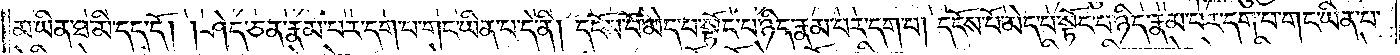མ་ཡིན་ཐ་མི་དད་དོ། །ཤེད་ཅན་རྣམ་པར་དག་པ་གང་ཡིན་པ་དེ་ནི། དངོས་པོ་མེད་པ་སྟོང་པ་ཉིད་རྣམ་པར་དག་པ། དངོས་པོ་མེད་པ་སྟོང་པ་ཉིད་རྣམ་པར་དག་པ་གང་ཡིན་པ་
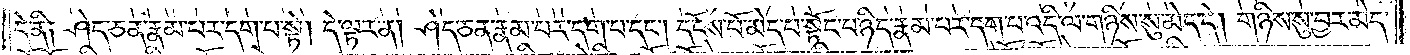དེ་ནི། ཤེད་ཅན་རྣམ་པར་དག་པ་སྟེ། དེ་ལྟར་ན། ཤེད་ཅན་རྣམ་པར་དག་པ་དང༌། དངོས་པོ་མེད་པ་སྟོང་པ་ཉིད་རྣམ་པར་དག་པ་འདི་ལ་གཉིས་སུ་མེད་དེ། གཉིས་སུ་བྱར་མེད་
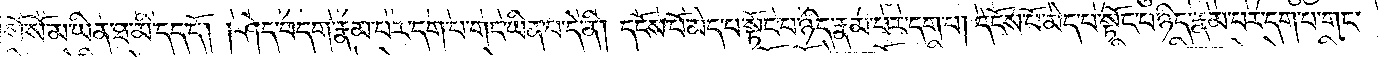སོ་སོ་མ་ཡིན་ཐ་མི་དད་དོ། །ཤེད་བདག་རྣམ་པར་དག་པ་གང་ཡིན་པ་དེ་ནི། དངོས་པོ་མེད་པ་སྟོང་པ་ཉིད་རྣམ་པར་དག་པ། དངོས་པོ་མེད་པ་སྟོང་པ་ཉིད་རྣམ་པར་དག་པ་གང་
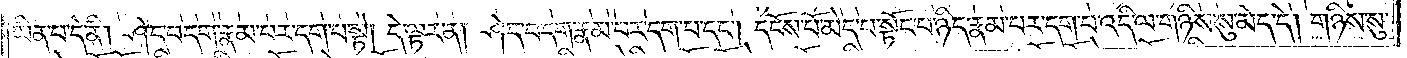ཡིན་པ་དེ་ནི། ཤེད་བདག་རྣམ་པར་དག་པ་སྟེ། དེ་ལྟར་ན། ཤེད་བདག་རྣམ་པར་དག་པ་དང༌། དངོས་པོ་མེད་པ་སྟོང་པ་ཉིད་རྣམ་པར་དག་པ་འདི་ལ་གཉིས་སུ་མེད་དེ། གཉིས་སུ་
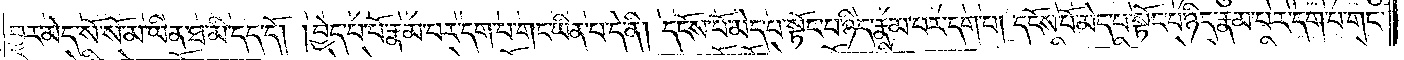བྱར་མེད་སོ་སོ་མ་ཡིན་ཐ་མི་དད་དོ། །བྱེད་པ་པོ་རྣམ་པར་དག་པ་གང་ཡིན་པ་དེ་ནི། དངོས་པོ་མེད་པ་སྟོང་པ་ཉིད་རྣམ་པར་དག་པ། དངོས་པོ་མེད་པ་སྟོང་པ་ཉིད་རྣམ་པར་དག་པ་གང་
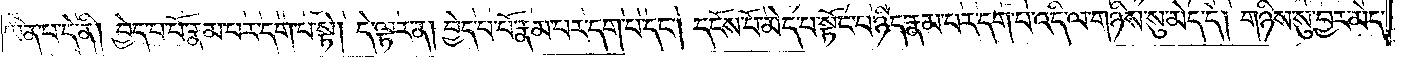ཡིན་པ་དེ་ནི། བྱེད་པ་པོ་རྣམ་པར་དག་པ་སྟེ། དེ་ལྟར་ན། བྱེད་པ་པོ་རྣམ་པར་དག་པ་དང༌། དངོས་པོ་མེད་པ་སྟོང་པ་ཉིད་རྣམ་པར་དག་པ་འདི་ལ་གཉིས་སུ་མེད་དེ། གཉིས་སུ་བྱར་མེད་
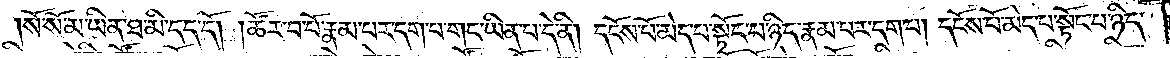སོ་སོ་མ་ཡིན་ཐ་མི་དད་དོ། །ཚོར་བ་པོ་རྣམ་པར་དག་པ་གང་ཡིན་པ་དེ་ནི། དངོས་པོ་མེད་པ་སྟོང་པ་ཉིད་རྣམ་པར་དག་པ། དངོས་པོ་མེད་པ་སྟོང་པ་ཉིད་
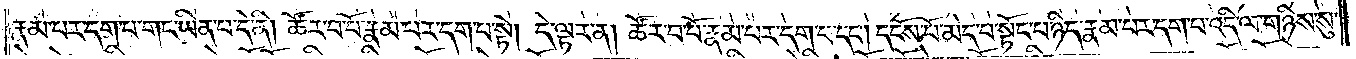རྣམ་པར་དག་པ་གང་ཡིན་པ་དེ་ནི། ཚོར་བ་པོ་རྣམ་པར་དག་པ་སྟེ། དེ་ལྟར་ན། ཚོར་བ་པོ་རྣམ་པར་དག་པ་དང༌། དངོས་པོ་མེད་པ་སྟོང་པ་ཉིད་རྣམ་པར་དག་པ་འདི་ལ་གཉིས་སུ་
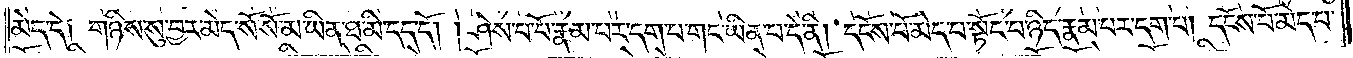མེད་དེ། གཉིས་སུ་བྱར་མེད་སོ་སོ་མ་ཡིན་ཐ་མི་དད་དོ། །ཤེས་པ་པོ་རྣམ་པར་དག་པ་གང་ཡིན་པ་དེ་ནི། དངོས་པོ་མེད་པ་སྟོང་པ་ཉིད་རྣམ་པར་དག་པ། དངོས་པོ་མེད་པ་
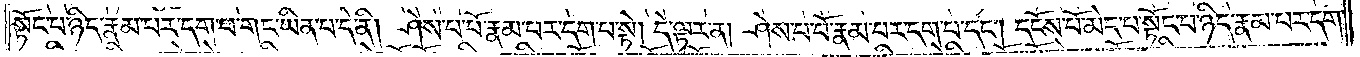སྟོང་པ་ཉིད་རྣམ་པར་དག་པ་གང་ཡིན་པ་དེ་ནི། ཤེས་པ་པོ་རྣམ་པར་དག་པ་སྟེ། དེ་ལྟར་ན། ཤེས་པ་པོ་རྣམ་པར་དག་པ་དང༌། དངོས་པོ་མེད་པ་སྟོང་པ་ཉིད་རྣམ་པར་དག་
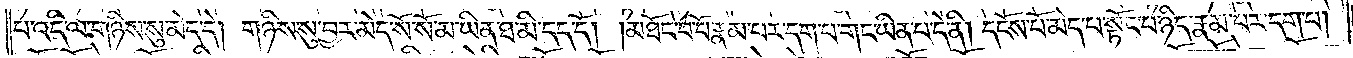པ་འདི་ལ་གཉིས་སུ་མེད་དེ། གཉིས་སུ་བྱར་མེད་སོ་སོ་མ་ཡིན་ཐ་མི་དད་དོ། །མཐོང་པ་པོ་རྣམ་པར་དག་པ་གང་ཡིན་པ་དེ་ནི། དངོས་པོ་མེད་པ་སྟོང་པ་ཉིད་རྣམ་པར་དག་པ།
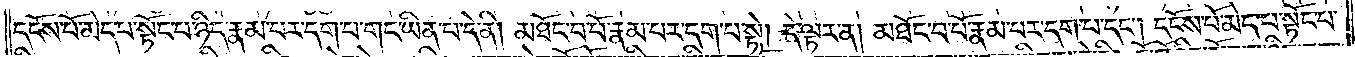དངོས་པོ་མེད་པ་སྟོང་པ་ཉིད་རྣམ་པར་དག་པ་གང་ཡིན་པ་དེ་ནི། མཐོང་བ་པོ་རྣམ་པར་དག་པ་སྟེ། དེ་ལྟར་ན། མཐོང་བ་པོ་རྣམ་པར་དག་པ་དང༌། དངོས་པོ་མེད་པ་སྟོང་པ་
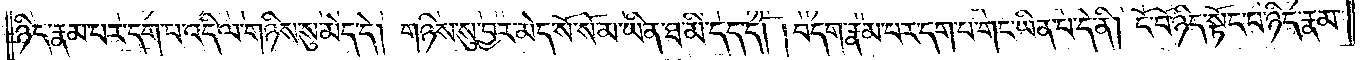ཉིད་རྣམ་བར་དག་པ་འདི་ལ་གཉིས་སུ་མེད་དེ། གཉིས་སུ་བྱར་མེད་སོ་སོ་མ་ཡིན་ཐ་མི་དད་དོ། །བདག་རྣམ་པར་དག་པ་གང་ཡིན་པ་དེ་ནི། ངོ་བོ་ཉིད་སྟོང་པ་ཉིད་རྣམ་
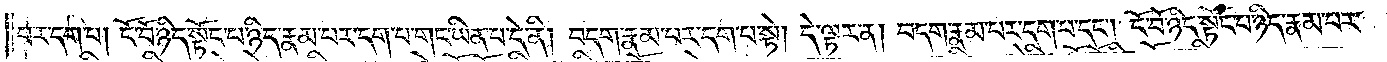པར་དག་པ། ངོ་བོ་ཉིད་སྟོང་པ་ཉིད་རྣམ་པར་དག་པ་གང་ཡིན་པ་དེ་ནི། བདག་རྣམ་པར་དག་པ་སྟེ། དེ་ལྟར་ན། བདག་རྣམ་པར་དག་པ་དང༌། ངོ་བོ་ཉིད་སྟོང་པ་ཉིད་རྣམ་པར་
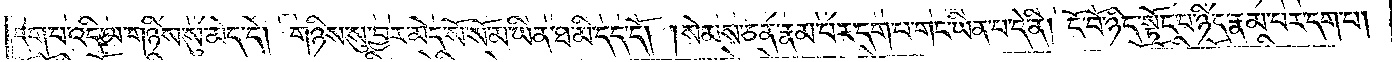དག་པ་འདི་ལ་གཉིས་སུ་མེད་དེ། གཉིས་སུ་བྱར་མེད་སོ་སོ་མ་ཡིན་ཐ་མི་དད་དོ། །སེམས་ཅན་རྣམ་པར་དག་པ་གང་ཡིན་པ་དེ་ནི། ངོ་བོ་ཉིད་སྟོང་པ་ཉིད་རྣམ་པར་དག་པ།
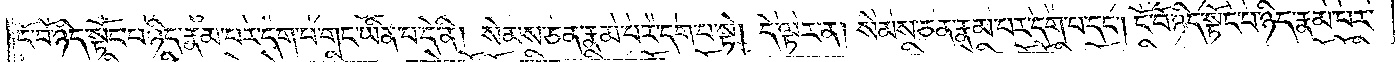ངོ་བོ་ཉིད་སྟོང་པ་ཉིད་རྣམ་པར་དག་པ་གང་ཡིན་པ་དེ་ནི། སེམས་ཅན་རྣམ་པར་དག་པ་སྟེ། དེ་ལྟར་ན། སེམས་ཅན་རྣམ་པར་དག་པ་དང༌། ངོ་བོ་ཉིད་སྟོང་པ་ཉིད་རྣམ་པར་
